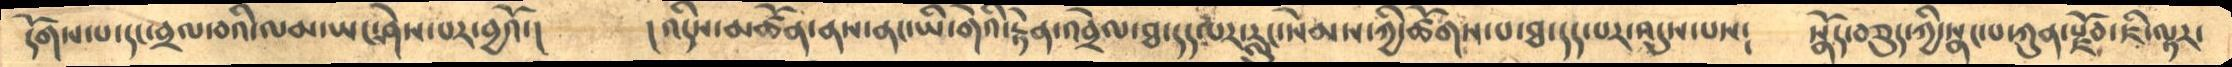དོགས་པ་དང་བྲལ་བའི་ལམ་ཡང་ཤེས་པར་བྱའོ་།      །འདིས་མཚོན་ནས་ནང་ཡི་གེའི་རྟེན་འབྲེལ་ཐ་དད་པར་རླུང་སེམས་ཀྱི་ཚོགས་པ་ཐ་དད་པར་འདུས་པས༴    སྣོད་བཅུད་ཀྱི་སྣང་པ་ཀུན་རྫོབ་ཇི་ལྟར་
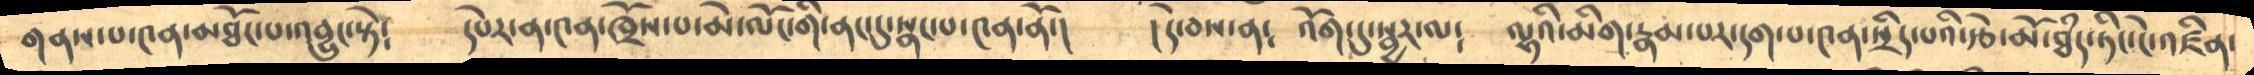གནས་པ་༤ན་མཐོང་པ་འབྱུང་སྟེ༴     དཔེར་ན་༤ན་ཁྲོས་པ་མེ་ལོང་གི་ནང་དུ་སྣང་པ་༤ན་ནོ་།    །དེ་བས་ན་༴  འོག་དུ་སྦྱར་ལ༴   ལྷའི་མིག་རྣམ་པར་དག་པ་༤ན་སྲིད་པའི་རྩེ་མོ་ཐཾད་ཏིང་ངེ་འཛིན་
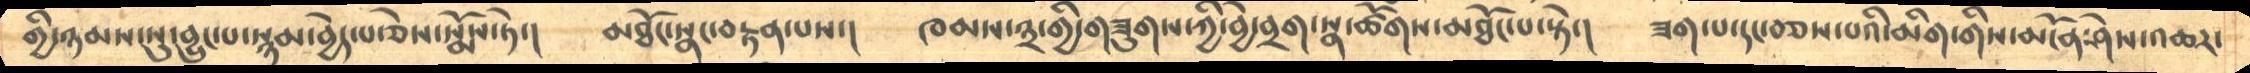གྱི་ཉམས་སུ་བྱུང་པ་སྙམ་བྱེད་པ་ཅེས་སྨོས་ཏེ་།  མཐོང་སྣང་བརྟན་པས་།   ཁམས་༣་གྱི་གཟུགས་ཀྱི་བྱེ་བྲག་སྣ་ཚོགས་མཐོང་པ་སྟེ་།    ཟག་པ་དང་བཅས་པའི་མིག་གིས་མངོན་ཤེས་འཆར་
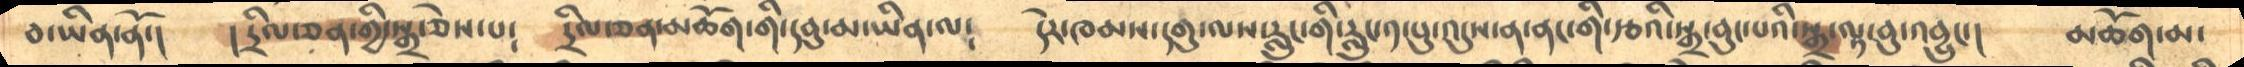བ་ཡིན་ནོ་།    ། དྲིལ་ཅན་ཀྱི་སྒྲ་ཅེས་པ༴    དྲིལ་ཅན་མཆོག་གི་དབུ་མ་ཡིན་ལ༴    དེར་ཁམས་དགུ་ལས་རླུང་གི་རླུང་༡་པུ་འདུས་ན་ནང་གི་རྩའི་སྒྲ་བུང་པའི་སྒྲ་ལྟ་བུ་འབྱུང་།    མཆོག་མ་
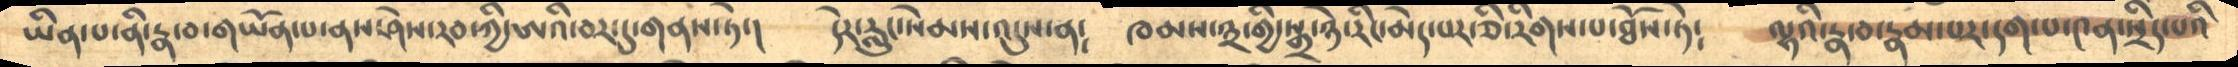ཡིན་པ་ནི་རྣ་བ་གཡོན་པ་ནས་ཤེས་རབ་ཀྱི་ཨའི་བར་དུ་གནས་ཏེ་།    དེར་རླུང་སེམས་འདུས་ན༴   ཁམས་༣་གྱི་སྒྲ་ཉེ་རིང་མེད་པར་ཅི་རིགས་པ་ཐོས་ཏེ༴    ལྷའི་རྣ་བ་རྣམ་པར་དག་པ་༤ན་སྲིད་པའི་
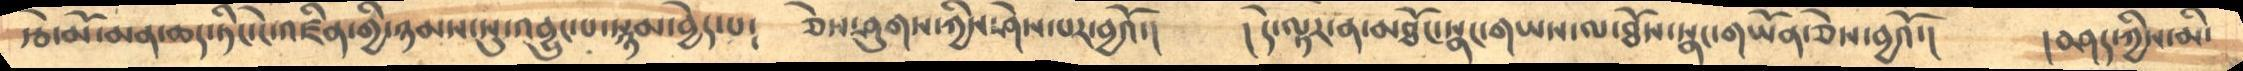རྩེ་མོ་མན་ཆད་ཏིང་ངེ་འཛིན་གྱི་ཉམས་སུ་འབྱུང་པ་སྙམ་བྱེད་པ༴    ཅེས་ཤུགས་ཀྱིས་ཤེས་པར་བྱའོ་།   །དེ་ལྟར་ན་མཐོང་སྣང་གཡས་ལ་ཐོས་སྣང་གཡོན་ཅེས་བྱའོ་།    །བཤད་ཀྱིས་མི་
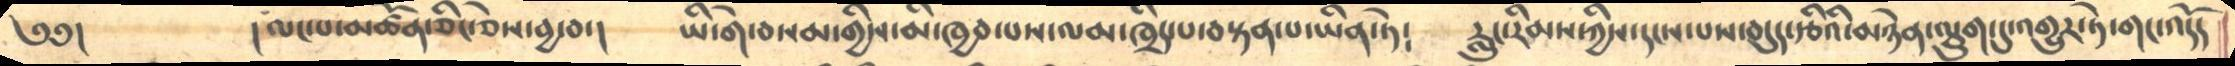༄༅།     །ལང་པ་མཚོན་ཅིང་ཅེས་བྱ་བ་།   ཡི་གེ་བསམ་གྱིས་མི་ཁྱབ་པས་ལམ་ཁྲིད་པ་བསྟན་པ་ཡིན་ཏེ༴    རླུང་རིམས་ཀྱིས་དངས་པས་བདུད་རྩིའི་མཉེན་ལྕུག་དུ་འགྱུར་ཏེ་གང་འདོད
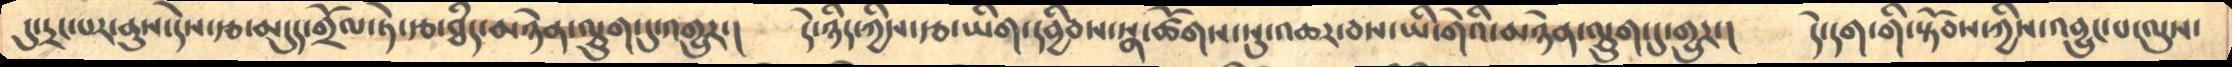དུ་དྲང་པར་ནུས་དེས་རྩ་མདུད་གྲོལ་ཏེ་རྩ་ཐཾད་མཉེན་ལྕུག་དུ་འགྱུར་།   དེ་ཉིད་ཀྱིས་རྩ་ཡིག་དབྱིབས་སྣ་ཚོགས་སུ་འཆར་བས་ཡི་གེའི་མཉེན་ལྕུག་དུ་གྱུར་།    དེ་དག་གི་སྟོབས་ཀྱིས་འབྱུང་པ་ལུས་
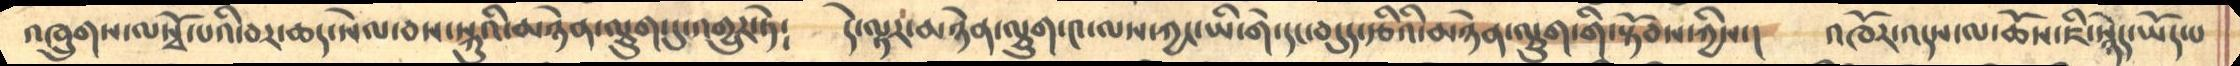འཁྲུགས་ལསྭོ་པའི་བར་ཆད་སེལ་བས་སྐུའི་མཉེན་ལྕུག་དུ་འགྱུར་ཏེ༴    དེ་ལྟར་མཉེན་ལྕུག་༤་ལས་ཀྱང་ཡི་གེ་དང་བདུད་རྩའིམཉེན་ལྕུག་གི་སྟོབས་ཀྱིས་།    འཁོར་འདས་ལ་ཆོས་ཇི་སྙེད་ཡོད་པ
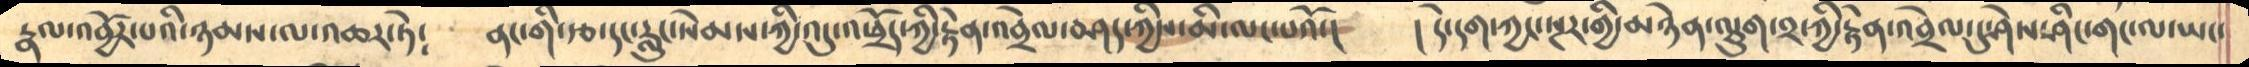རྣལ་འབྱོར་པའི་ཉམས་ལ་འཆར་ཏེ༴    ནང་གི་རྩ་དང་རླུང་སེམས་ཀྱི་འདུ་འཕྲོད་ཀྱི་རྟེན་འབྲེལ་བཤད་ཀྱིས་མི་ལང་པའོ་།    ། དེ་དག་ཀྱང་སྔར་གྱི་མཉེན་ལྕུག་༢་ཀྱི་རྟེན་འབྲེལ་དུ་ཤེས་ཤིང་གང་ལ་ཡང་
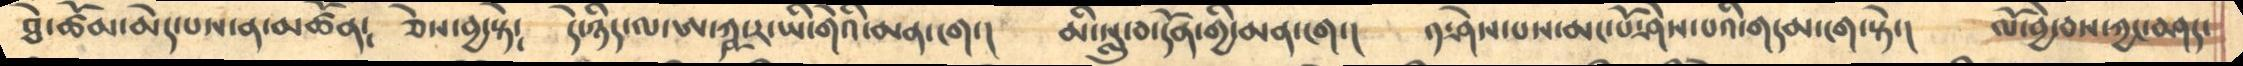ཐེ་ཚོམ་མེད་པས་ན་མཚོན༴   ཅེས་བྱ་སྟེ༴   དེ་ཉིད་ལ་ཨ་ཀྵ་ར་ཡི་གེའི་མན་ངག་།   མི་སླུ་བ་དོན་གྱི་མན་ངག་།   ༡་ཤེས་པས་མང་པོ་ཤེས་པའི་གདམ་ངག་སྟེ་།     ལོ་བྱེ་བས་ཀྱང་བཤད་
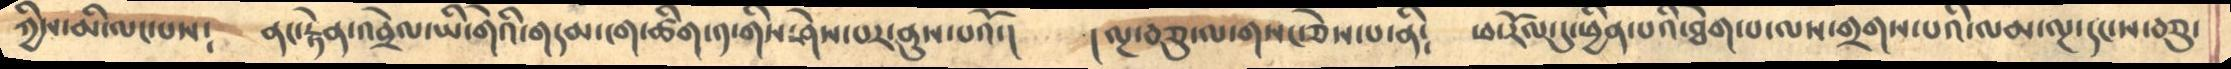ཀྱིས་མི་ལང་པས༴    ནང་རྟེན་འབྲེལ་ཡི་གེའི་གདམ་ངག་ཚིག་༡་གིས་ཤེས་པར་ནུས་པའོ་།    །ལྔ་བཅུ་ལ་གསང་ཅེས་པ་ནི༴  ཕ་རོལ་དུ་ཕྱིན་པའི་ཐེག་པ་ལས་གྲགས་པའི་ལམ་ལྔ་དང་ས་བཅུ་
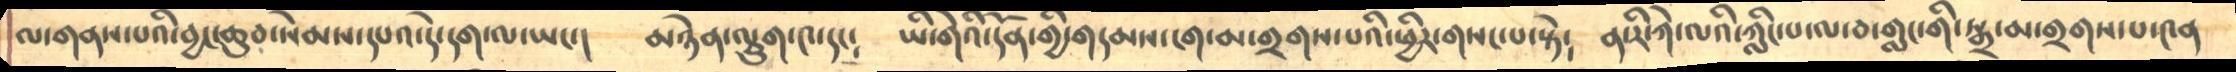ལ་གནས་པའི་བྱང་ཆུབ་སེམས་དཔའ་དེ་དག་ལ་ཡང་།      མཉེན་ལྕུག་༤་དང༴   ཡི་གེའི་དོན་གྱི་གདམས་ངག་མ་གྲགས་པའི་ཕྱིར་གསང་པ་སྟེ༴   ན་རི་ཀེ་ལའི་ཀླིང་པ་ལ་བ་གླང་གི་སྒྲ་མ་གྲགས་པ་༤ན
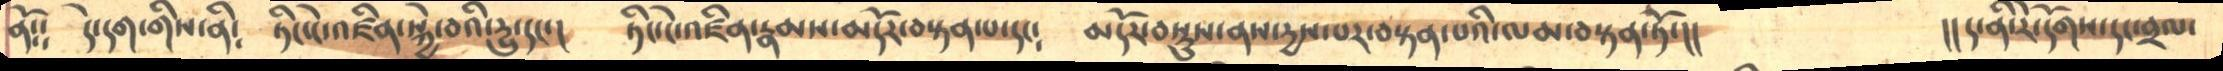ནོ༴༴   དེ་དག་གིས་ནི༴   ཏིང་ངེ་འཛིན་སྐྱེ་བའི་དྱུ་དང་།   ཏིང་ངེ་འཛིན་རྣམས་མདོར་བསྟན་པ་དང༴    མདོར་བསྡུས་ནས་དྱས་པར་བསྟན་པའི་ལམ་བསྟན་ཏོ་།།       །།ད་ནི་རེ་དོགས་དང་བྲལ་
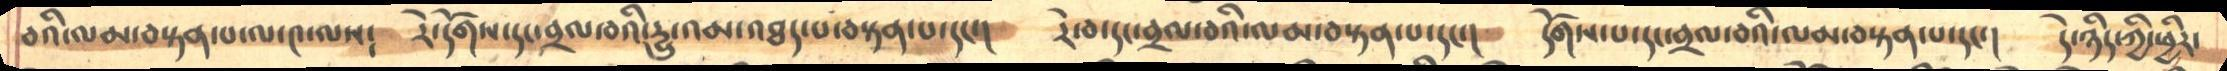བའི་ལམ་བསྟན་པ་ལ་༤་ལས༴   རེ་དོགས་དང་བྲལ་བའི་དྱུ་འམ་འཐད་པ་བསྟན་པ་དང་།    རེ་བ་དང་བྲལ་བའི་ལམ་བསྟན་པ་དང་།    དོགས་པ་དང་བྲལ་བའི་ལམ་བསྟན་པ་དང་།    དེ་ཉིད་ཀྱི་ཕྱིར༴
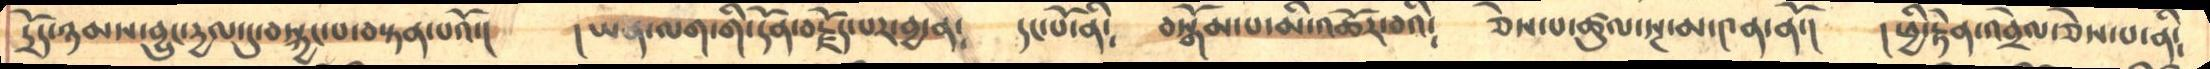དྲོད་ཉམས་བྱུང་དྱལ་དུ་བསྐྱང་པ་བསྟན་པའོ་།    །ཡན་ལག་གི་དོན་བརྗོད་པར་བྱ་ན༴    དང་པོ་ནི༴     བསྒོམ་པ་མི་འཆོར་བའི༴    ཅེས་པ་ཚུལ་སྔ་མ་༤ན་ནོ་།    །ཕྱི་རྟེན་འབྲེལ་རྩེས་པ་ནི༴
